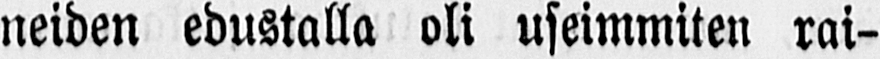neiden edustalla oli useimmiten rai-
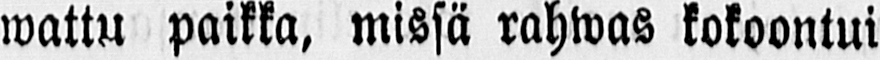wattu paikka, missä rahwas kokoontui
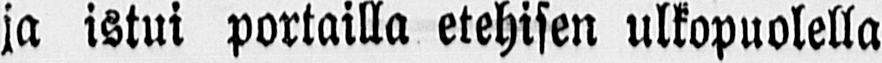ja istui portailla etehisen ulkopuolella
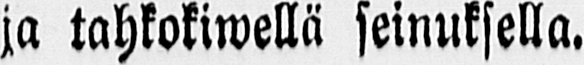ja tahkokiwellä seinuksella.
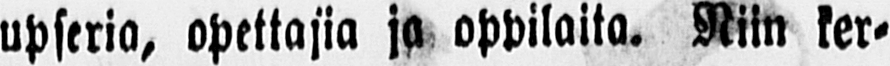upseria, opettajia ja oppilaita. Niin ker-
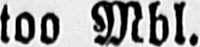too Mbl.
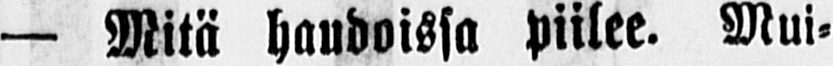— Mitä haudoissa piilee. Mui-
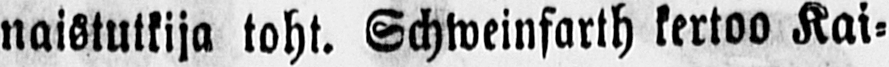naistutkija toht. Schweinfarth kertoo Kai-
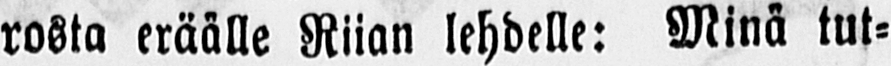rosta eräälle Riian lehdelle: Minä tut-
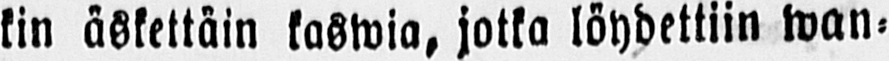kin äskettäin kaswia, jotka löydettiin wan-
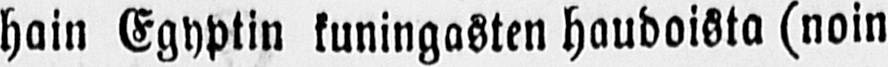hain Egyptin kuningasten haudoista (noin
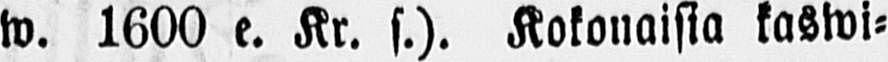w. 1600 e. Kr. s.). Kokonaisia kaswi-
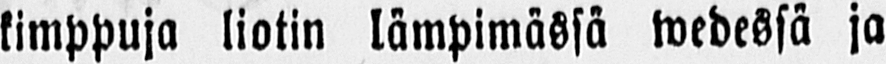kimppuja liotin lämpimässä wedessä ja
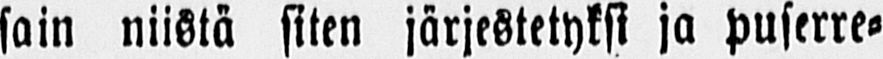sain niistä siten järjestetyksi ja puserre-
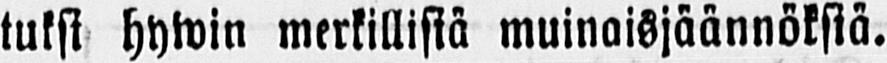tuksi hywin merkillisiä muinaisjäännöksiä.
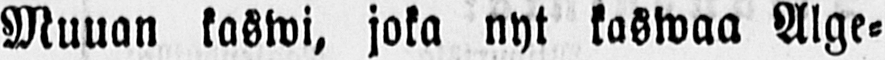Muuan kaswi, joka nyt kaswaa Alge-
